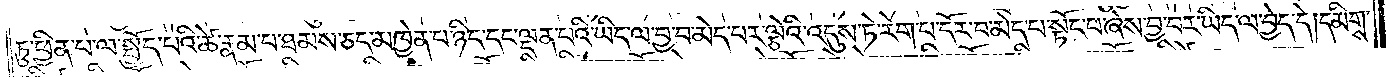ཏུ་ཕྱིན་པ་ལ་སྤྱོད་པའི་ཚེ་རྣམ་པ་ཐམས་ཅད་མཁྱེན་པ་ཉིད་དང་ལྡན་པའི་ཡིད་ལ་བྱ་བ་མེད་པར་ལྕེའི་འདུས་ཏེ་རེག་པ་དོར་བ་མེད་པ་སྟོང་པ་ཞེས་བྱ་བར་ཡིད་ལ་བྱེད་དེ། དམིགས་
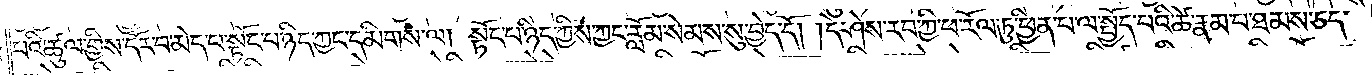པའི་ཚུལ་གྱིས་དོར་བ་མེད་པ་སྟོང་པ་ཉིད་ཀྱང་དམིགས་ལ། སྟོང་པ་ཉིད་ཀྱིས་ཀྱང་རློམ་སེམས་སུ་བྱེད་དོ། །དེ་ཤེས་རབ་ཀྱི་ཕ་རོལ་ཏུ་ཕྱིན་པ་ལ་སྤྱོད་པའི་ཚེ་རྣམ་པ་ཐམས་ཅད་
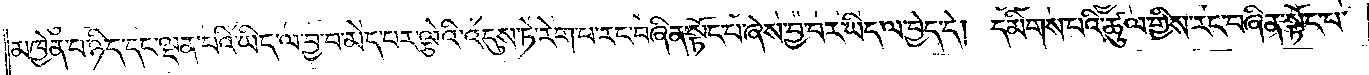མཁྱེན་པ་ཉིད་དང་ལྡན་པའི་ཡིད་ལ་བྱ་བ་མེད་པར་ལྕེའི་འདུས་ཏེ་རེག་པ་རང་བཞིན་སྟོང་པ་ཞེས་བྱ་བར་ཡིད་ལ་བྱེད་དེ། དམིགས་པའི་ཚུལ་གྱིས་རང་བཞིན་སྟོང་པ་
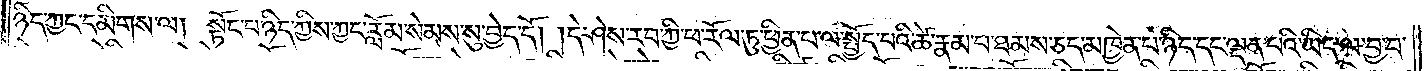ཉིད་ཀྱང་དམིགས་ལ། སྟོང་པ་ཉིད་ཀྱིས་ཀྱང་རློམ་སེམས་སུ་བྱེད་དོ། །དེ་ཤེས་རབ་ཀྱི་ཕ་རོལ་ཏུ་ཕྱིན་པ་ལ་སྤྱོད་པའི་ཚེ་རྣམ་པ་ཐམས་ཅད་མཁྱེན་པ་ཉིད་དང་ལྡན་པའི་ཡིད་ལ་བྱ་བ་
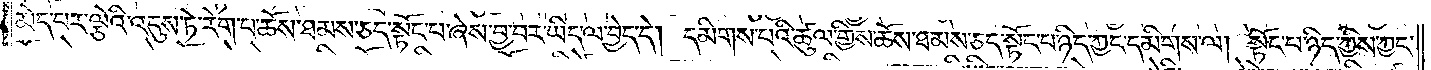མེད་པར་ལྕེའི་འདུས་ཏེ་རེག་པ་ཆོས་ཐམས་ཅད་སྟོང་པ་ཞེས་བྱ་བར་ཡིད་ལ་བྱེད་དེ། དམིགས་པའི་ཚུལ་གྱིས་ཆོས་ཐམས་ཅད་སྟོང་པ་ཉིད་ཀྱང་དམིགས་ལ། སྟོང་པ་ཉིད་ཀྱིས་ཀྱང་
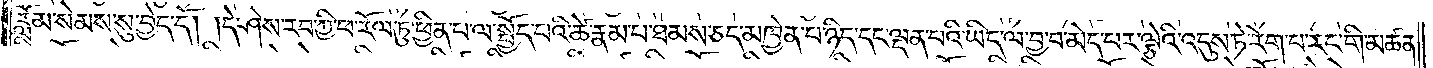རློམ་སེམས་སུ་བྱེད་དོ། །དེ་ཤེས་རབ་ཀྱི་ཕ་རོལ་ཏུ་ཕྱིན་པ་ལ་སྤྱོད་པའི་ཚེ་རྣམ་པ་ཐམས་ཅད་མཁྱེན་པ་ཉིད་དང་ལྡན་པའི་ཡིད་ལ་བྱ་བ་མེད་པར་ལྕེའི་འདུས་ཏེ་རེག་པ་རང་གི་མཚན་
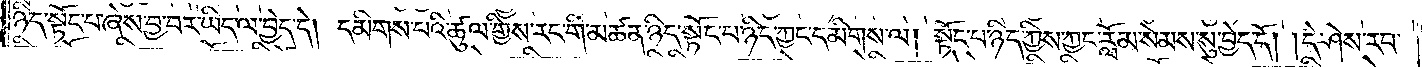ཉིད་སྟོང་པ་ཞེས་བྱ་བར་ཡིད་ལ་བྱེད་དེ། དམིགས་པའི་ཚུལ་གྱིས་རང་གི་མཚན་ཉིད་སྟོང་པ་ཉིད་ཀྱང་དམིགས་ལ། སྟོང་པ་ཉིད་ཀྱིས་ཀྱང་རློམ་སེམས་སུ་བྱེད་དོ། །དེ་ཤེས་རབ་
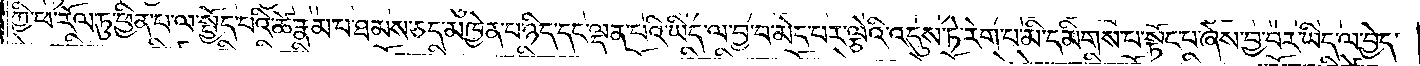ཀྱི་ཕ་རོལ་ཏུ་ཕྱིན་པ་ལ་སྤྱོད་པའི་ཚེ་རྣམ་པ་ཐམས་ཅད་མཁྱེན་པ་ཉིད་དང་ལྡན་པའི་ཡིད་ལ་བྱ་བ་མེད་པར་ལྕེའི་འདུས་ཏེ་རེག་པ་མི་དམིགས་པ་སྟོང་པ་ཞེས་བྱ་བར་ཡིད་ལ་བྱེད་
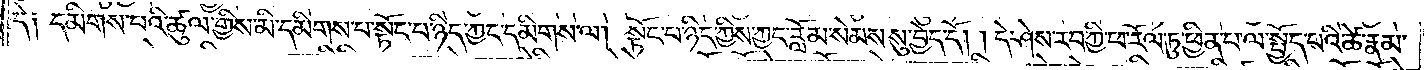དེ༑ དམིགས་པའི་ཚུལ་གྱིས་མི་དམིགས་པ་སྟོང་པ་ཉིད་ཀྱང་དམིགས་ལ། སྟོང་པ་ཉིད་ཀྱིས་ཀྱང་རློམ་སེམས་སུ་བྱེད་དོ། །དེ་ཤེས་རབ་ཀྱི་ཕ་རོལ་ཏུ་ཕྱིན་པ་ལ་སྤྱོད་པའི་ཚེ་རྣམ་
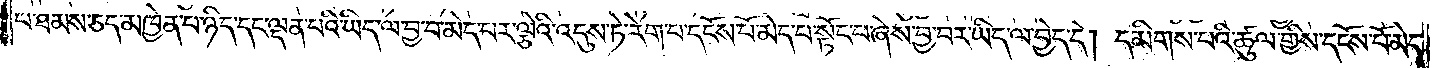པ་ཐམས་ཅད་མཁྱེན་པ་ཉིད་དང་ལྡན་པའི་ཡིད་ལ་བྱ་བ་མེད་པར་ལྕེའི་འདུས་ཏེ་རེག་པ་དངོས་པོ་མེད་པ་སྟོང་པ་ཞེས་བྱ་བར་ཡིད་ལ་བྱེད་དེ། དམིགས་པའི་ཚུལ་གྱིས་དངོས་པོ་མེད་
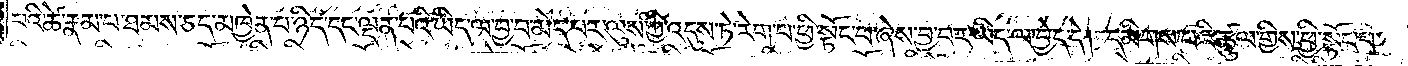པའི་ཚེ་རྣམ་པ་ཐམས་ཅད་མཁྱེན་པ་ཉིད་དང་ལྡན་པའི་ཡིད་ལ་བྱ་བ་མེད་པར་ལུས་ཀྱི་འདུས་ཏེ་རེག་པ་ཕྱི་སྟོང་པ་ཞེས་བྱ་བར་ཡིད་ལ་བྱེད་དེ། དམིགས་པའི་ཚུལ་གྱིས་ཕྱི་སྟོང་པ་
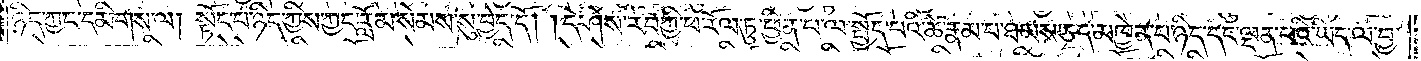ཉིད་ཀྱང་དམིགས་ལ། སྟོང་པ་ཉིད་ཀྱིས་ཀྱང་རློམ་སེམས་སུ་བྱེད་དོ། །དེ་ཤེས་རབ་ཀྱི་ཕ་རོལ་ཏུ་ཕྱིན་པ་ལ་སྤྱོད་པའི་ཚེ་རྣམ་པ་ཐམས་ཅད་མཁྱེན་པ་ཉིད་དང་ལྡན་པའི་ཡིད་ལ་བྱ་
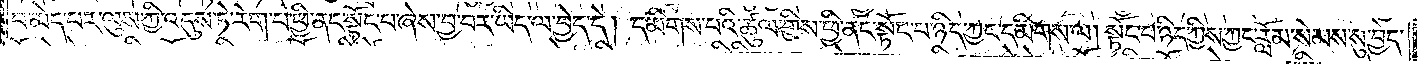བ་མེད་པར་ལུས་ཀྱི་འདུས་ཏེ་རེག་པ་ཕྱི་ནང་སྟོང་པ་ཞེས་བྱ་བར་ཡིད་ལ་བྱེད་དེ། དམིགས་པའི་ཚུལ་གྱིས་ཕྱི་ནང་སྟོང་པ་ཉིད་ཀྱང་དམིགས་ལ། སྟོང་པ་ཉིད་ཀྱིས་ཀྱང་རློམ་སེམས་སུ་བྱེད་
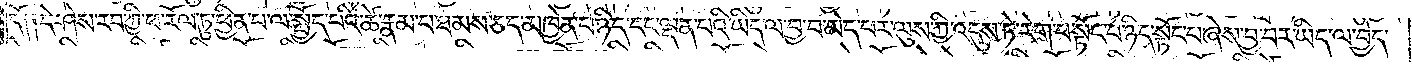དོ༑ ༑དེ་ཤེས་རབ་ཀྱི་ཕ་རོལ་ཏུ་ཕྱིན་པ་ལ་སྤྱོད་པའི་ཚེ་རྣམ་པ་ཐམས་ཅད་མཁྱེན་པ་ཉིད་དང་ལྡན་པའི་ཡིད་ལ་བྱ་བ་མེད་པར་ལུས་ཀྱི་འདུས་ཏེ་རེག་པ་སྟོང་པ་ཉིད་སྟོང་པ་ཞེས་བྱ་བར་ཡིད་ལ་བྱེད་
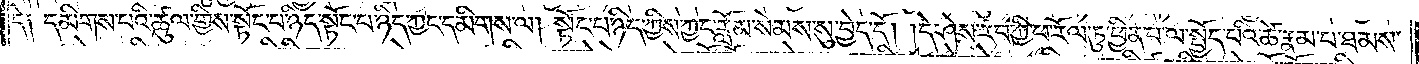དེ༑ དམིགས་པའི་ཚུལ་གྱིས་སྟོང་པ་ཉིད་སྟོང་པ་ཉིད་ཀྱང་དམིགས་ལ། སྟོང་པ་ཉིད་ཀྱིས་ཀྱང་རློམ་སེམས་སུ་བྱེད་དོ། །དེ་ཤེས་རབ་ཀྱི་ཕ་རོལ་ཏུ་ཕྱིན་པ་ལ་སྤྱོད་པའི་ཚེ་རྣམ་པ་ཐམས་
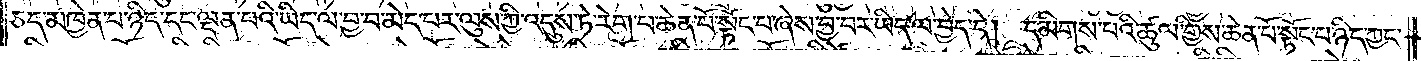ཅད་མཁྱེན་པ་ཉིད་དང་ལྡན་པའི་ཡིད་ལ་བྱ་བ་མེད་པར་ལུས་ཀྱི་འདུས་ཏེ་རེག་པ་ཆེན་པོ་སྟོང་པ་ཞེས་བྱ་བར་ཡིད་ལ་བྱེད་དེ། དམིགས་པའི་ཚུལ་གྱིས་ཆེན་པོ་སྟོང་པ་ཉིད་ཀྱང་
